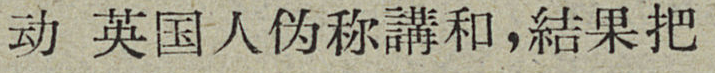动英国人伪称講和，結果把
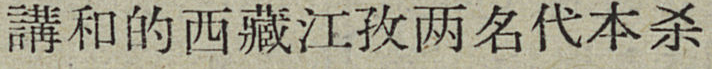講和的西藏江孜两名代本杀
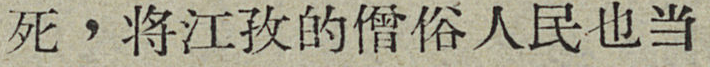死，将江孜的僧俗人民也当
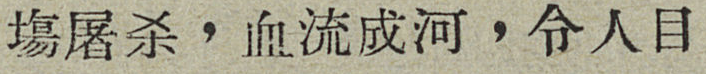塲屠杀，血流成河，令人目
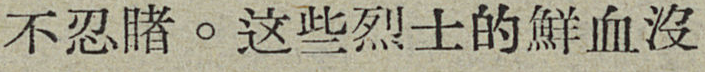不忍睹。这些烈士的鮮血沒
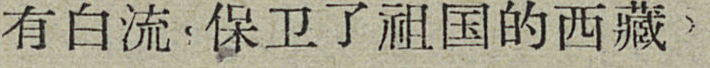有白流，保卫了祖国的西藏。
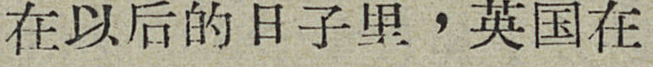在以后的日子里，英国在
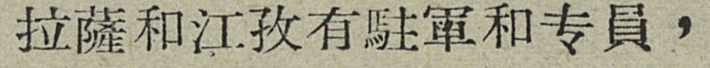拉薩和江孜有駐軍和专員，
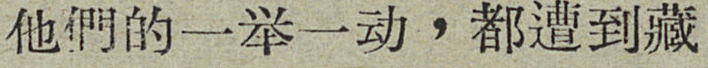他們的一举一动，都遭到藏
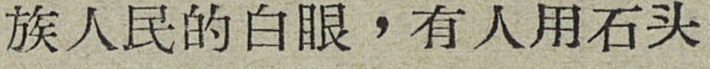族人民的白眼，有人用石头
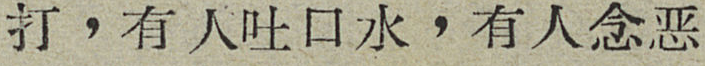打，有人吐口水，有人念恶
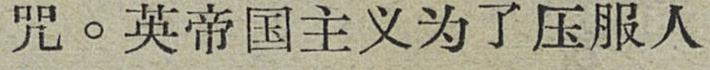咒。英帝国主义为了压服人
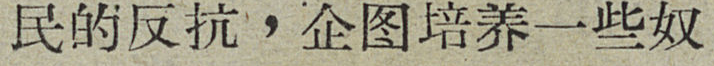民的反抗，企图培养一些奴
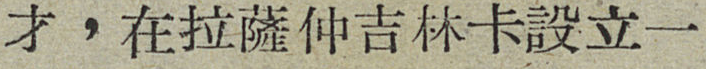才，在拉薩仲吉林卡設立一
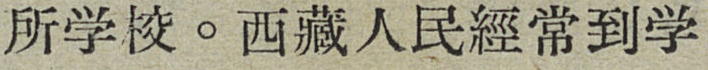所学校。西藏人民經常到学
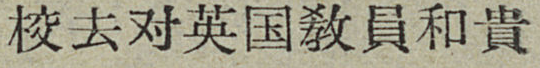校去对英国敎員和貴
